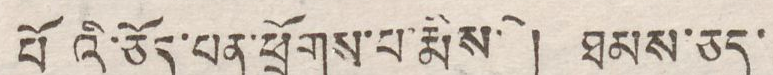པོའི་ཅོད་པན་ཕྲོགས་པ་རྨིས་སི། ཐམས་ཅད་
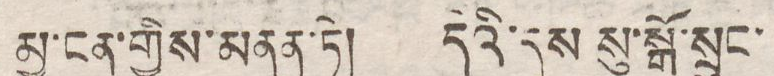མྱ་ངན་གྱིས་མནན་ཏེ། དེའི་དུས་སུ་སྒོ་སྲུང་
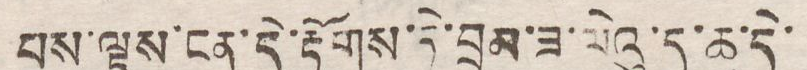པས་ལྟས་ངན་དེ་རྟོགས་ཏེ་བྲམ་ཟ་ལེའུ་དུ་ཆ་དེ་
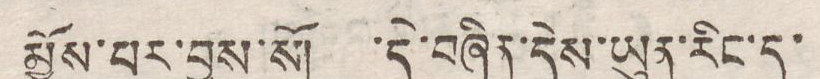མྱོས་པར་བྱས་སོ། དེ་བཞིན་དེས་ཡུན་རིང་དུ་
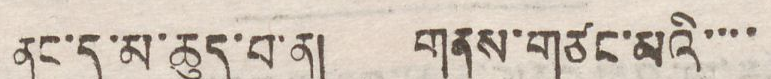ནང་དུ་མ་ཆུད་པ་ན། གནས་གཙང་མའི་་་་
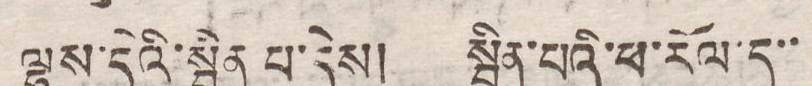ལྷས་དེའི་སྦྱིན པ་དེས། སྦྱིན་པའི་ཕ་རོལ་དུ་་
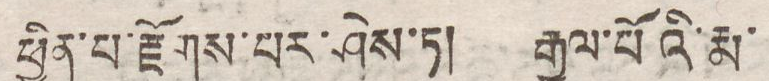ཕྱིན་པ་རྫོགས་པར་ཤེས་ཏ། རྒྱལ་པོའི་རྨ་
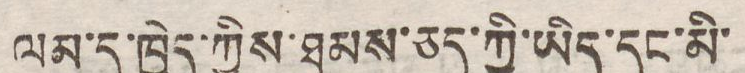ལམ་དུ་ཁྱེད་ཀྱིས་ཐམས་ཅད་ཀྱི་ཡིད་དང་མི་
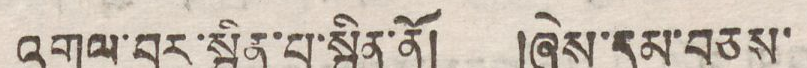འགལ་བར་སྦྱིན་པ་སྦྱིན་ནོ། །ཞེས་དམ་བཅས་
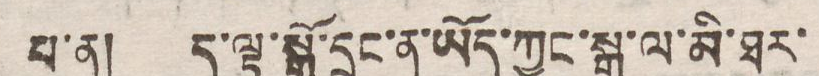པ་ན། ད་ལྟ་སྒོ་དྲུང་ན་ཡོད་ཀྱང་སྒ་ལ་མི་ཐར་
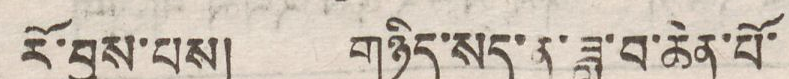རོ་བྱས་པས། གཉིད་སད་ན་ཟླ་བ་ཆེན་པོ་
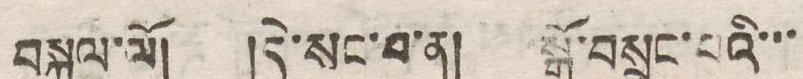བསྐུལ་ལོ། །དེ་སང་བ་ན། སྒོ་བསྲུང་པའི་་་
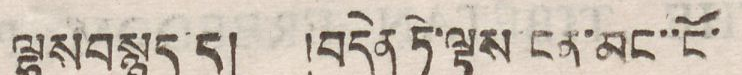ལྷས བསྙད་ད། །བདེན ཏེ་ལྟས་ངན་མང་་ངོ་
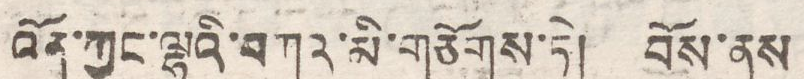འོན་ཀྱང་ལྷའི་བཀའ་མི་གཅོགས་ཏེ། བོས་ནས
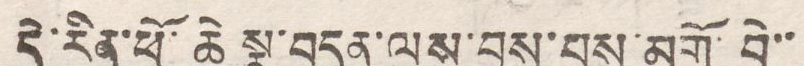དེ་རིན་ཕོ་ཆེ སྣ་བདུན་ལས་བྱས་པས་མགོ་བེ་་
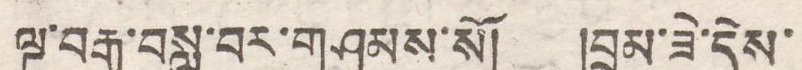ལྔ་བརྒྱ་བསླུ་བར་གཤམས་སོ། །བྲམ་ཟེ་དེས་
